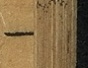一
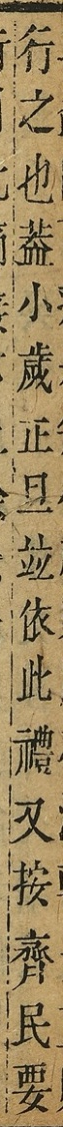行之也蓋小歲正旦竝依此禮又按齊民要
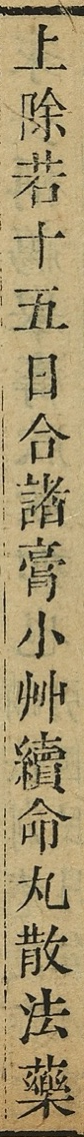上除若十五日合諸膏小艸續命丸散法藥
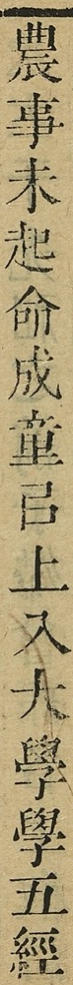農事未起命成童以上入大學學五經
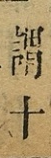謂十
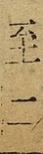至二
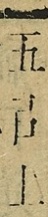五以上
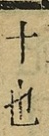十也
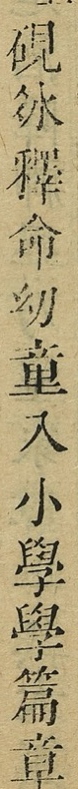硯冰釋命幼童入小學學篇章
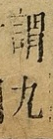謂九
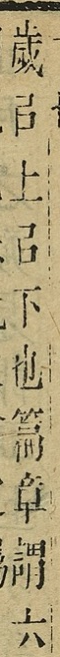歲以上以下也篇章謂六
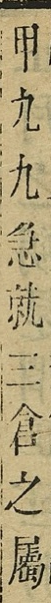甲九九急就三倉之屬
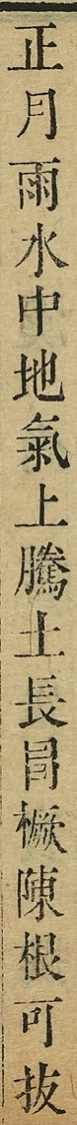正月雨水中地氣上騰土長昌橛陳根可抜
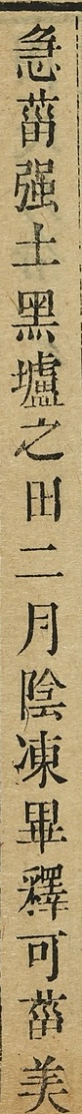急菑強土黑壚之田二月陰凍畢釋可菑美
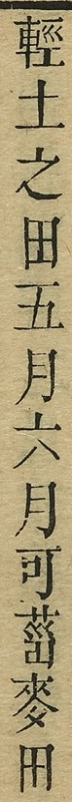輕土之田五月六月可菑麥田
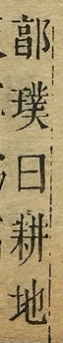鄗璞曰耕地
